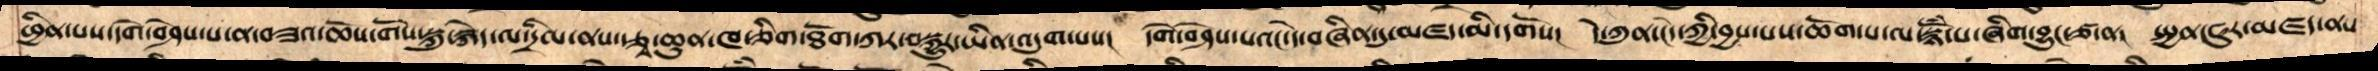ཕྱིན་པས་དགེ་བཤེས་པ་ན་བཟའ་ཆོས་གོས་སྐུ་རྐེད་ལ་དྲིལ་ནས་རྩྭ་ཆུན་ཁ་ཅིག་ཐོག་ཀར་བསྐྱུར་ཡིན་འདུག་པས།   དགེ་བཤེས་པའང་དེ་བཞིན་དུ་མཛད་མི་དགོས།   དེ་ཀུན་ངེད་ཀྱི་བྱས་པས་ཆོག་པ་ལ་སྙོཾ་པ་ཞིག་བྱུང་ཙ་ན།   སྤྱན་ཧུར་མཛད་ནས
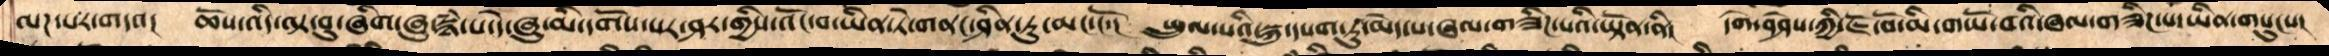ལཌཔར་གདའ།   ཆོས་འདི་ལྟ་བུ་ཞིག་ཞུ་སྙཾ་པ་དེ་ཞུ་མི་དགོས་པར་ཤར་གྱིས་འོང་བ་ཡིན་ཏེ་གནང་ཤིན་ཏུ་མང་ངོ་།   སྤྲུལ་པའི་སྐུ་དཔག་ཏུ་མེད་པ་ཞལ་གཟིཌ་པའི་ཡྟོན་ནི།   དགེ་བཤེས་ཀྱི་ཇོ་བོ་མི་གཡོ་བའི་ཞལ་གཟིཌ་པ་ཡིན་གསུངས།
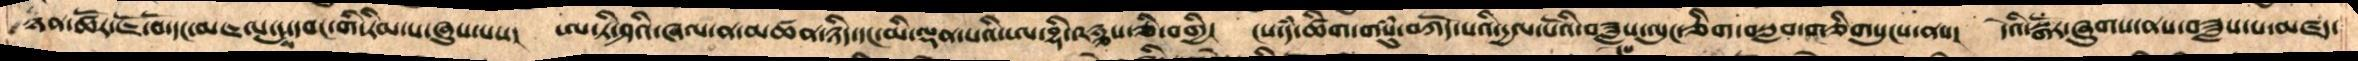ཉན་ཚོར་ཇོ་བོ་དང་མཇལ་དུས་དབང་གི་རིམ་པ་ཞུས་པས། ཨ་ཏི་ཤའི་ཞལ་ན་མཚན་ཉིད་དང་མི་ལྡན་པའི་ཨ་བྷི་ཥཉྩས་ཅི་བགྱི།  ངས་དཾ་ཚིག་གསུཾ་བཀོད་པའི་རྒྱལ་པོའི་བཟླས་ལུང་ཅིག་བསླབ་གཅིགསུངས་ནས།  དེའི་སྒོར་ཞུགས་ནས་བཟླས་པ་མཛད་
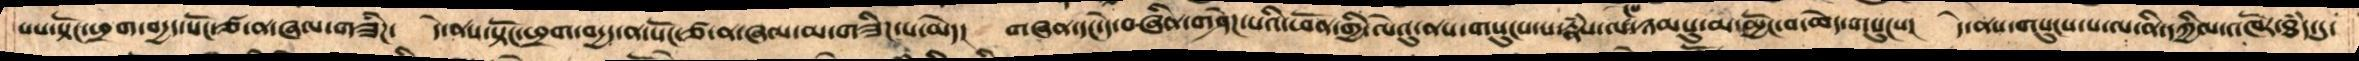པས་སྟོང་ཕྲག་བདྱད་སོང་ཙ་ན་ཞལ་གཟིཌ་  དེ་ནས་སྟོང་ཕྲག་བདྱད་ན་སོང་ཙ་ན་ཞལ་མ་གཟིཌ་པ་མེད།   གཞན་དང་དེ་བཞིན་གཤེཌ་པའི་ཕོན་གྱི་ལེའུ་ནས་གསུངས་པ་རྣཾས་ལ་ཉམསུ་མ་མྱོང་བ་མེད་གསུངས།   དེ་ནས་གསུངས་པ་ལ་ནི་དཀྱིལ་འཁོར་ཐཾད་དུ་
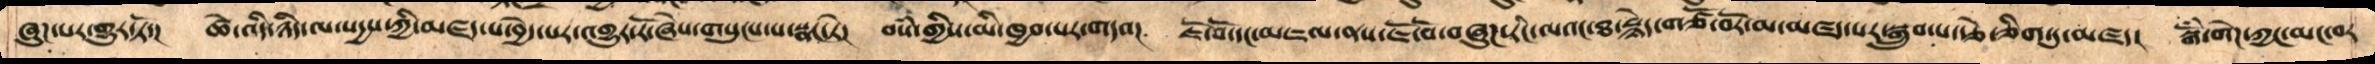ཞུཌ་པར་གྱུར་ཏོ་།   ཚེ་འདི་ཉིད་ལ་སདྱས་ཀྱི་མཛད་པ་བྱེད་པར་འགྱུར་རོ་ཞེས་གསུངས་པ་སྣང་ཏེ།   བསཾ་གྱིས་མི་ཁྱབ་པར་གདའ།   ཇོ་བོ་དང་མཇལ་ནས་ཇོ་བོ་བཞུཌ་རིང་ལའང་ཐ་སྙེད་གཙོ་བོར་མ་མཛད་པར་སྒྲུབ་པ་རྩེ་ཅིག་དུ་མཛད།     སྒོཾ་གེཌ་ཀྱང་མང་བར
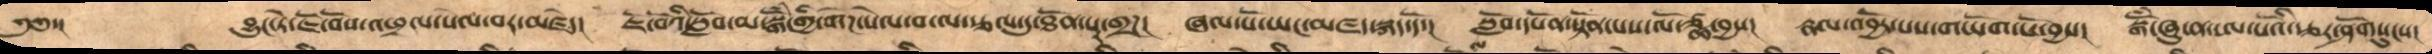༄༅་།      བྱུང་ཏེ་ཇོ་བོས་འཕྲལ་སེལ་བར་མཛདེ།   ཇོ་བོའི་སློབ་མ་སྒོཾ་གྱི་གེཌ་སེལ་བ་ལ་རྩལ་དུ་ཐོན་པར་གྲཌ།   ཞལ་པོ་ཡང་མཛད་སྐད་དོ་།   སློབ་དཔོན་སྟོན་པས་ལོ་ཙྪ་བྱས།   རྣལ་འབྱོར་པས་གཡོག་པོ་བྱས།   སྒོཾ་ཞུ་ན་ཨ་པོའི་རྩར་ཤོགསུངས།
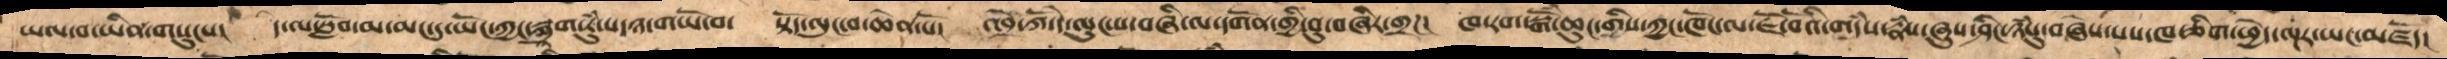ཡལ་བ་ཡིན་གསུངས།  དེ་ལ་སློབ་མ་མང་དུ་ཡོང་ཀྱང་སྐྲག་རུཾ་པ་ཉ་གཡོ་བ་  སྟོད་ལུང་བ་ཆེན་པོ།   འབྲོ་ཀོ་དེ་ལུང་པ་བཞི་ལ་དགོན་གྱི་བུ་བཞིར་གྲཌ།   ཁ་རག་སྒོཾ་ཆུང་གྱིས་ཀྱང་ཁོང་ལ་ཇོ་བོའི་གདཾས་རྣཾས་ཞུས་ཤིང་ཉཾསུ་བཞེས་པས་ཁ་ཅིག་ཕྱེད་ལྟར་ཡང་མཛོད།
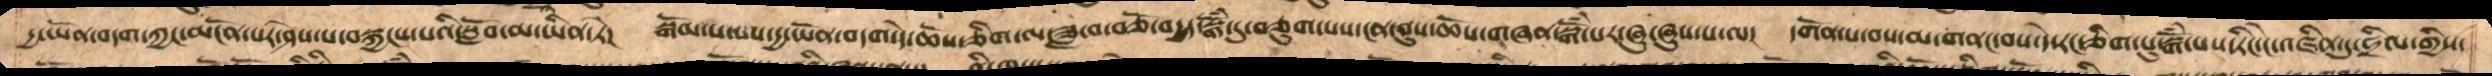དྱ་ཡོན་བདག་ཀྱང་མངོན་པར་ཤེས་པ་བསྐྱངས་པའི་སློབ་མ་ཡིན་ཏེ།  སྒོམ་པ་པས་དྱ་ཡོན་བདག་དེ་ཆོས་ཅིག་ལ་ཟླ་བ་བཅོ་བདྱད་སྒོཾ་དུ་བཅུག་པས་ངན་ནུས་ཆོས་གཞན་སྒོཾ་པར་ཞུ་ཞུས་པ་ལ།  དགོན་པ་བས་མ་གནང་བས་དེ་རང་ཅིག་པུ་སྒོཾ་པས་ཏིང་ངེ་འཛིན་དུ་ཧྲིལ་གྱིས་
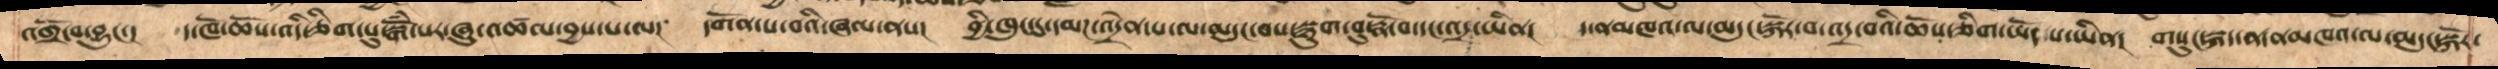འགྲོ་བ་བྱུང་། ད་ཁོ་ཆོས་འདི་ཅིག་པུ་སྒོཾ་པར་ཞུ་འཚལ་བྱས་པ་ལ།   དགོན་པ་བའི་ཞལ་ནས།   བྱི་ཁུང་དུ་དམཌ་འདྲེན་པ་ལ་མདུང་བས་སྙུག་བུ་རྣོ་བ་དང་འདྲ་བ་ཡིན།  ད་ནམ་མཁའ་ལ་མདུང་སྐོར་བ་འདྲ་བའི་ཆོས་ཅིག་ཡོད་པ་ཡིན།  གསུང་སྐད་ན་ནམཁའ་ལ་མདུང་སྐོར་
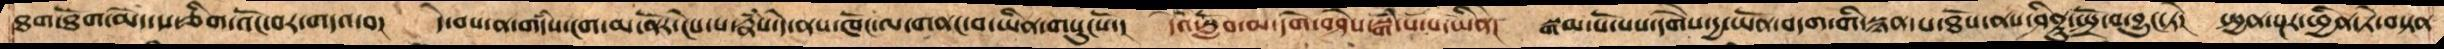ཐག་ཐོག་མེད་པ་ཅིག་འོང་བར་གདའ་བ།   དེ་བས་ན་གདཾས་ངག་མ་ནོར་ངེས་པ་རྣཾས་དེ་ནས་ཁོང་ལ་གནང་བ་ཡིན་གསུངསོ་།   དེའི་སློབ་མ་དགེ་བཤེས་སྒཾ་པོ་པ་ཡིནེ།   སྒམ་པོ་པས་དགཻས་དྱ་ཡོན་བདག་གི་སྙན་པ་ཐོས་ནས་ཤིནྟུ་སྤྲོ་བ་བྱུང་ཏེ།    སྤྱན་སྔར་ཕྱིན་ཏེ་བསྟན
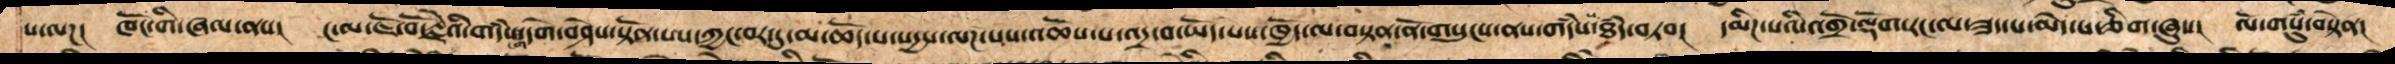པ་ལཌ།  ཁོང་གི་ཞལ་ནས།  ང་ལ་ཇོ་བོ་རྗེའི་གདཾས་ངག་དགེ་བཤེས་སྟོན་པས་ཀྱང་བར་དུ་མ་ཆོད་པ་སདྱས་ལཌ་པས་འཆོས་པ་འདྲ་བ་ཡོད་པས་ཁྱོད་ལ་བསྟན་ནོ་གསུངས་ནས་གདཾས་ཐཾད་བཏབ།  དམིཌ་པའི་འགྲོ་ལྡོག་རང་ལ་ཟད་པ་མེད་པ་ཅིག་ཞུས།  ལོ་གསུཾ་བསྟེན།
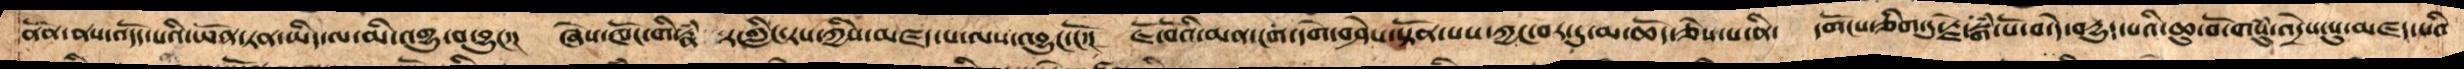ནོན་ནས་འདོད་པའི་ཡོན་ཏན་ཡིད་ལ་མི་འགྱུ་བ་བྱུང་ང   ཞེས་ཁོང་གི་རྣཾ ར་གླིང་རས་ཀྱིས་མཛད་པ་ལས་འབྱུང་ངོ་།   ཇོ་བོའི་མན་ངག་དགེ་བཤེས་སྟོན་པས་ཀྱང་བར་དུ་མ་ཆོད་ཅེས་པ་ནི་  དགོངས་ཅིག་དུ་རྗེ་སྒཾ་པོ་བ་དེ་བདྱུད་པའི་ཆུ་བོ་གསུཾ་འདྲེས་སུ་མཛད་པའི
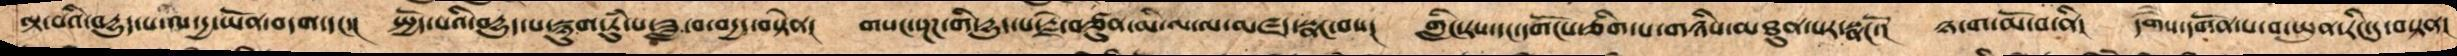ལྟ་བའི་བདྱུད་པ་ལ་དྱ་ཡོན་བདག་དང་།  སྤྱོད་པའི་བདྱུད་པ་སྙུག་རུཾ་པ་ཟླ་བ་བདྱད་བསྟེན།  གསང་སྔཌ་ཀྱི་དྱུད་པ་རྗེ་བཙུན་མི་ལ་ལ་མཛད་སྣང་བས།   གླིང་རས་དང་དགོངས་ཅིག་པ་གཉིས་མཐུན་པར་སྣངོ་།  ཉ་ག་མོ་བ་ནི།  དགཻས་དགོན་པ་བ་ཡུན་རིང་དུ་བསྟན་
